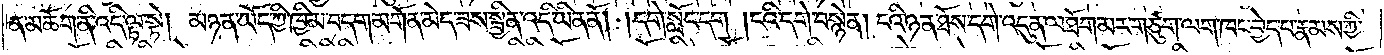ན་མཆོག་ནི་འདི་ལྟ་སྟེ། མཉན་ཡོད་ཀྱི་ཁྱིམ་བདག་མགོན་མེད་ཟས་སྦྱིན་འདི་ཡིན་ནོ། །དགེ་སློང་དག །ངའི་དགེ་བསྙེན། ངའི་ཉན་ཐོས་དགེ་འདུན་ལ་ཐོག་མར་གཙུག་ལག་ཁང་བྱེད་པ་རྣམས་ཀྱི་
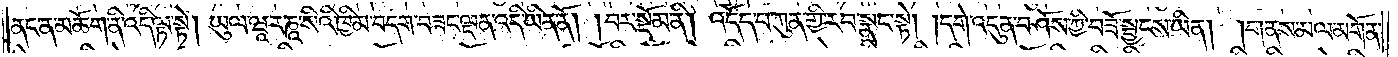ནང་ན་མཆོག་ནི་འདི་ལྟ་སྟེ། ཡུལ་ཝཱ་ར་ཎཱ་སིའི་ཁྱིམ་བདག་བཟང་ལྡན་འདི་ཡིན་ནོ། །བར་སྡོམ་ནི། འདོད་པ་ཀུན་གྱི་རབ་སྣང་སྟེ། །དགེ་འདུན་བཤོས་ཀྱི་བཟོ་སྦྱངས་ཡིན། །གནས་མལ་མགོན་
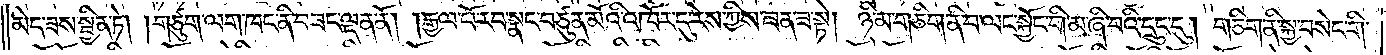མེད་ཟས་སྦྱིན་ཏེ། །གཙུག་ལག་ཁང་ནི་བཟང་ལྡན་ནོ། །རྒྱལ་པོ་རབ་སྣང་བཙུན་མོའི་འཁོར་དུ་རེས་ཀྱིས་ཟན་ཟ་སྟེ། ཉི་མ་གཅིག་ནི་བ་ལང་སྐྱོང་གི་མ་ཞི་བའི་དྲུང་དུ། གཅིག་ནི་སྐྱ་བསེང་གི་
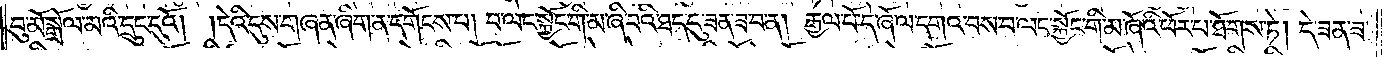བུ་མོ་སྒྲོལ་མའི་དྲུང་དུའོ། །དེའི་དུས་གཞན་ཞིག་ན་དགོངས་པ། བ་ལང་སྐྱོང་གི་མ་ཞི་བའི་ཐད་དུ་ཟན་ཟ་བ་ན། རྒྱལ་པོ་དེ་ཞོ་ལ་དགའ་བས་བ་ལང་སྐྱོང་གི་མ་ཞོའི་ཕོར་བ་ཐོགས་ཏེ། དེ་ཟན་ཟ་
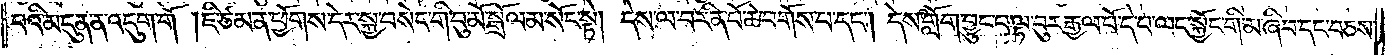བའི་མདུན་ན་འདུག་གོ །ཇི་ཙམ་ན་ཕྱོགས་དེར་སྐྱ་བསེང་གི་བུ་མོ་སྒྲོལ་མ་སོང་སྟེ། དེས་ལ་བ་རིན་པོ་ཆེ་བགོས་པ་དང༌། དེས་གློག་བྱུང་བ་ལྟ་བུར་རྒྱལ་པོ་དེ་བ་ལང་སྐྱོང་གི་མ་ཞིབ་དང་བཅས་
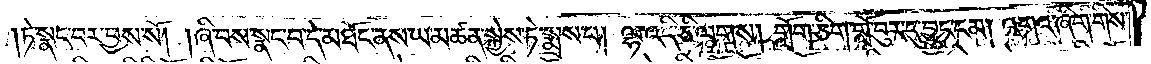།ཏེ་སྣང་བར་བྱས་སོ། །ཞི་བས་སྣང་བ་དེ་མཐོང་ནས་ཡ་མཚན་སྐྱེས་ཏེ་སྨྲས་པ། ལྷ་འདི་ཅི་ལགས། གློག་ཅིག་གློ་བུར་དུ་བྱུང་ངམ། འགའ་ཞིག་གིས་
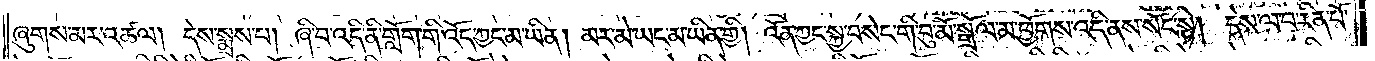ཞུགས་མར་འཚལ། དེས་སྨྲས་པ། ཞི་བ་འདི་ནི་གློག་གི་འོད་ཀྱང་མ་ཡིན། མར་མེ་ཡང་མ་ཡིན་གྱི། འོན་ཀྱང་སྐྱ་བསེང་གི་བུ་མོ་སྒྲོལ་མ་ཕྱོགས་འདི་ནས་སོང་སྟེ། དེས་ལ་བ་རིན་པོ་
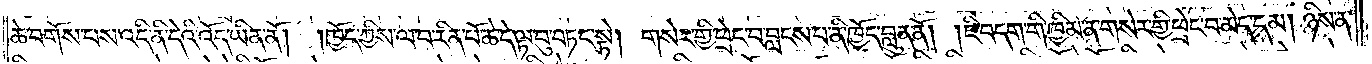ཆེ་བགོས་པས་འདི་ནི་དེའི་འོད་ཡིན་ནོ། །ཁྱོད་ཀྱིས་ལ་བ་རིན་པོ་ཆེ་དེ་ལྟ་བུ་བཏང་སྟེ། གསེར་གྱི་ཕྲེང་བ་བླངས་པ་ནི་ཁྱོད་བླུན་ནོ། །ཇི་བདག་གི་ཁྱིམ་ན་གསེར་གྱི་ཕྲེང་བ་མེད་དམ། ཉིས་ན་
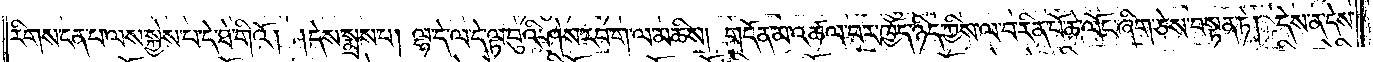རིགས་ངན་པ་ལས་སྐྱེས་པ་དེ་ཐེ་གིའོ། །དེས་སྨྲས་པ། ལྷ་དེ་ལ་དེ་ལྟ་བུའི་ཤེས་རབ་ག་ལ་མཆིས། གདོན་མ་འཚལ་བར་ཁྱོད་ཉིད་ཀྱིས་ལ་བ་རིན་པོ་ཆེ་ལོང་ཞིག་ཅེས་བསྟན་ཏེ། དེས་ན་དེས་
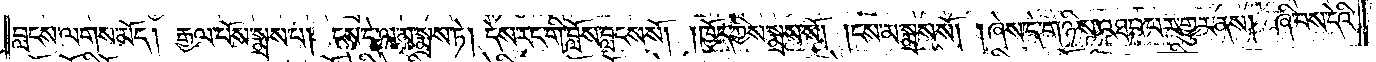བླངས་ལགས་མོད། རྒྱལ་པོས་སྨྲས་པ། ངས་དེ་ལ་མ་སྨྲས་ཏེ། དེས་རང་གི་བློས་བླངས་སོ། །ཁྱོད་ཀྱིས་སྨྲས་སོ། །ངས་མ་སྨྲས་སོ། །ཞེས་དེ་གཉིས་འཐབ་པར་གྱུར་ནས། ཞི་བས་དེའི་
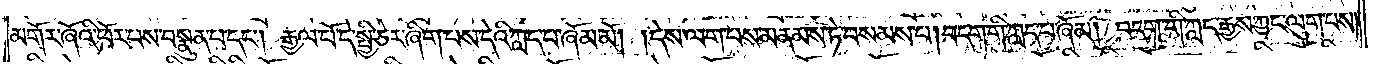མགོར་ཞོའི་ཕོར་བས་བསྣུན་པ་དང༌། རྒྱལ་པོ་དེ་སྤྱི་ཅེར་ཞིག་པས་དེའི་ཀླད་པ་ཞོམ་མོ། །དེས་ལག་པས་མནམས་ཏེ་བསམས་པ། བདག་གི་ཀླད་པ་ཞོམ། བདག་གི་ཀླད་རྒྱས་ཀྱང་ལུག་པས།
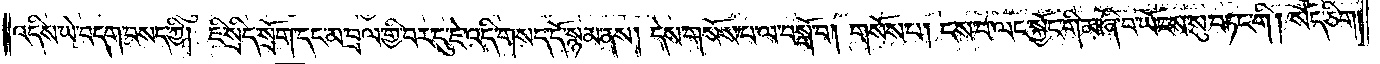འདིས་ཡེ་བདག་བསད་ཀྱི། ཇི་སྲིད་སྲོག་དང་མ་བྲལ་གྱི་བར་དུ་ཇེ་འདི་གསད་དོ་སྙམ་ནས། དེས་གསོས་པ་ལ་བསྒོ་བ། གསོས་པ། ངས་བ་ལང་སྐྱོང་གི་མ་ཞི་བ་ཡོངས་སུ་བཏང་གི། སོད་ཅིག་
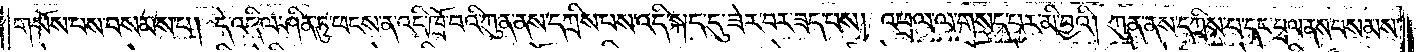གསོས་པས་བསམས་པ། དེ་འདི་ལ་ཤིན་ཏུ་ཕངས་ན་འདི་ཁྲོ་བའི་ཀུན་ནས་དཀྲིས་པས་འདི་སྐད་དུ་ཟེར་བར་ཟད་པས། འཕྲལ་ལ་གསད་པར་མི་བྱའི། ཀུན་ནས་དཀྲིས་པ་དང་བྲལ་ནས་བསམས་
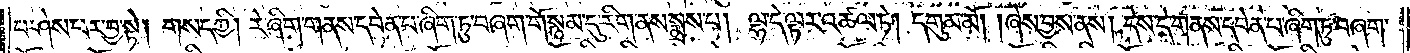པ་ཤེས་པར་བྱ་སྟེ། གསད་ཀྱི། རེ་ཞིག་གནས་དབེན་པ་ཞིག་ཏུ་བཞག་གོ་སྙམ་དུ་རིག་ནས་སྨྲས་པ། ལྷ་དེ་ལྟར་འཚལ་ཏེ། དགུམ་མོ། །ཞེས་བྱས་ནས། དེས་དེ་གནས་དབེན་པ་ཞིག་ཏུ་བཞག་
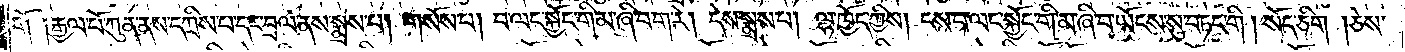གོ །རྒྱལ་པོ་ཀུན་ནས་དཀྲིས་པ་དང་བྲལ་ནས་སྨྲས་པ། གསོས་པ། བ་ལང་སྐྱོང་གི་མ་ཞི་བ་ག་རེ། དེས་སྨྲས་པ། ལྷ་ཁྱོད་ཀྱིས། ངས་བ་ལང་སྐྱོང་གི་མ་ཞི་བ་ཡོངས་སུ་བཏང་གི །སོད་ཅིག །ཅེས་
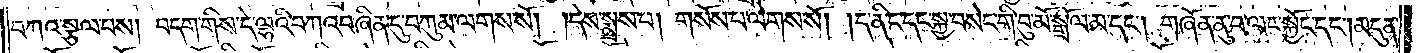བཀའ་སྩལ་པས། བདག་གིས་དེ་ལྷའི་བཀའ་བཞིན་དུ་བཀུམ་ལགས་སོ། །དེས་སྨྲས་པ། གསོས་པ་ལེགས་སོ། །ད་ནི་ང་དང་སྐྱ་བསེང་གི་བུ་མོ་སྒྲོལ་མ་དང༌། གཞོན་ནུ་བ་ལང་སྐྱོང་དང༌། མདུན་
